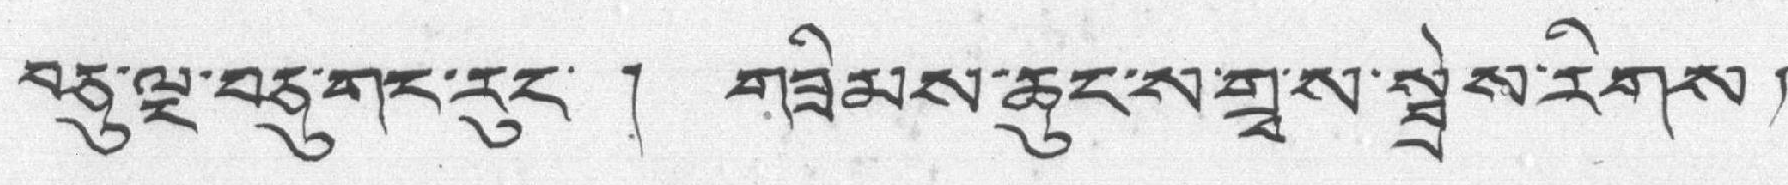བཅུ་ལྔ་བཅུ་གང་རུང་ ། གཟིམས་ཆུང་ས་གྲྭ་ས་སྦྲེས་རིགས།
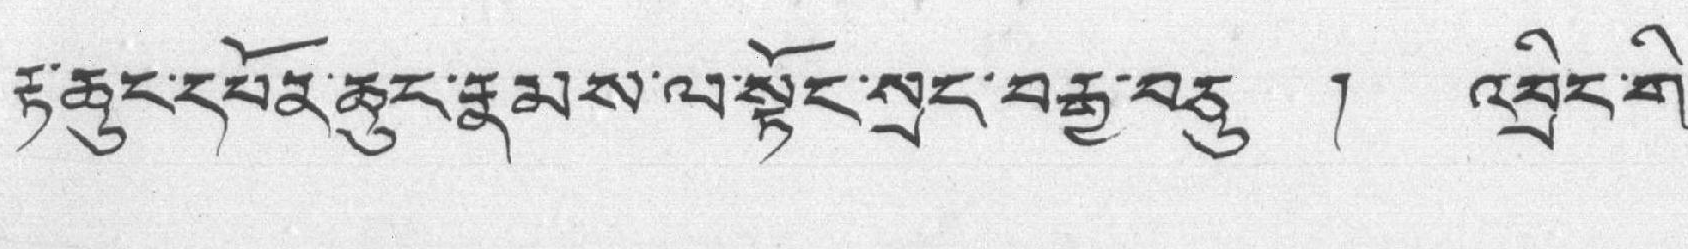རྟ་ཆུང་དཔོན་ཆུང་རྣམས་ལ་སྟོང་སྲང་བརྒྱ་བཅུ ། འབྲིང་གི་
